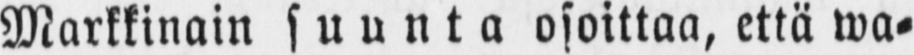Marktinain suunta osoittaa, että wa-
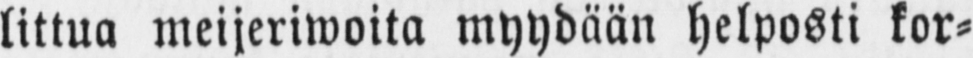littua meijeriwoita myydään helposti kor-
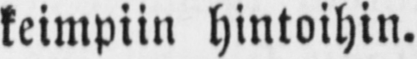keimpiin hintoihin.
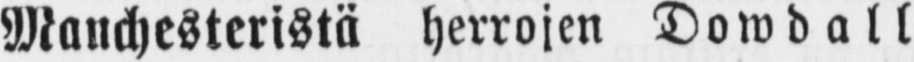Manchesteristä herrojen Dowdall
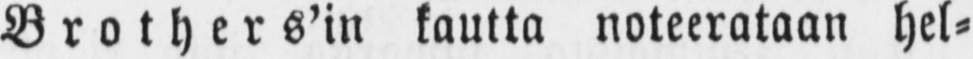Brothers'in lautta noteerataan hel-
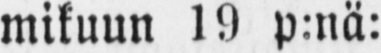mikuun 19 p:nä
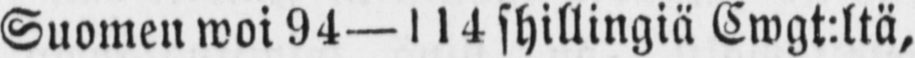Suomen woi 94- 114 shillingiä Cwgt.ltä,
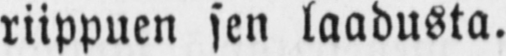riippuen sen laadusta.
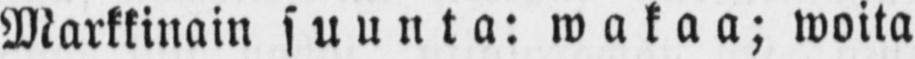Markkinain suunta: wakaa; woita
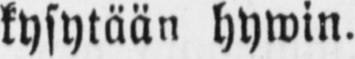kysytään hywin.
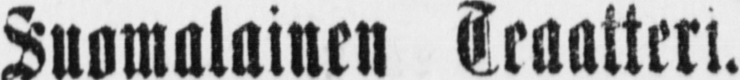Suomalainen Teaatteri.
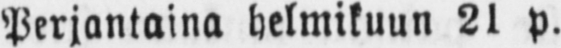Perjantaina helmikuun 2l p.
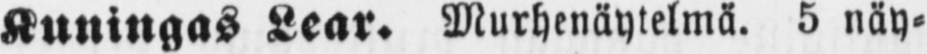Kuningas Lear. Murhenäytelmä. 5 näy-
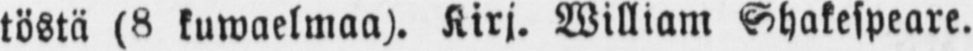töstä (8 kuwaelmaa). Kirj. William Shakespeare.
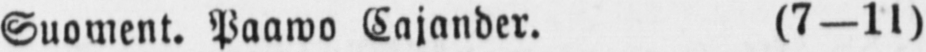Suoment. Paawo Cajander. (7—11)
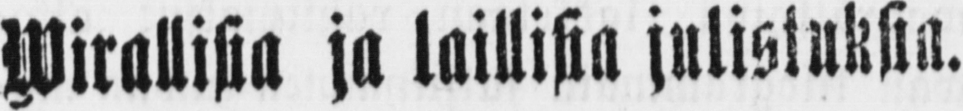Wirallista ja laillista julistuksta.
